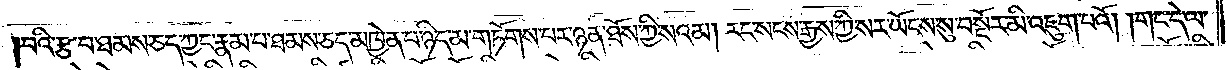བའི་རྩ་བ་ཐམས་ཅད་ཀྱང་རྣམ་པ་ཐམས་ཅད་མཁྱེན་པ་ཉིད་མ་གཏོགས་པར་ཉན་ཐོས་ཀྱི་སའམ། རང་སངས་རྒྱས་ཀྱི་སར་ཡོངས་སུ་བསྔོར་མི་འཇུག་པའོ། །གང་དེ་ལ་
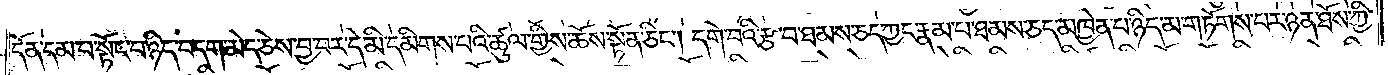དོན་དམ་པ་སྟོང་པ་ཉིད་བདག་མེད་ཅེས་བྱ་བར་དེ་མི་དམིགས་པའི་ཚུལ་གྱིས་ཆོས་སྟོན་ཅིང༌། དགེ་བའི་རྩ་བ་ཐམས་ཅད་ཀྱང་རྣམ་པ་ཐམས་ཅད་མཁྱེན་པ་ཉིད་མ་གཏོགས་པར་ཉན་ཐོས་ཀྱི་
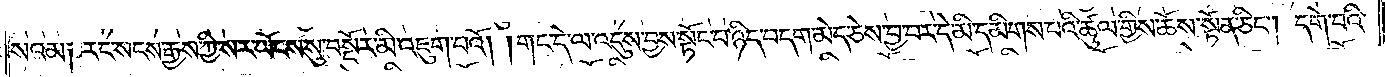སའམ༑ རང་སངས་རྒྱས་ཀྱི་སར་ཡོངས་སུ་བསྔོར་མི་འཇུག་པའོ། །གང་དེ་ལ་འདུས་བྱས་སྟོང་པ་ཉིད་བདག་མེད་ཅེས་བྱ་བར་དེ་མི་དམིགས་པའི་ཚུལ་གྱིས་ཆོས་སྟོན་ཅིང༌། དགེ་བའི་
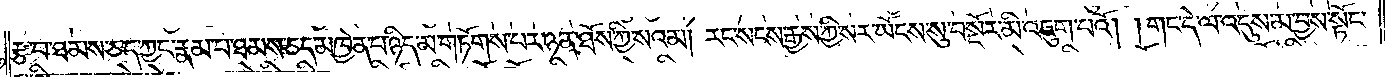རྩ་བ་ཐམས་ཅད་ཀྱང་རྣམ་པ་ཐམས་ཅད་མཁྱེན་པ་ཉིད་མ་གཏོགས་པར་ཉན་ཐོས་ཀྱི་སའམ། རང་སངས་རྒྱས་ཀྱི་སར་ཡོངས་སུ་བསྔོར་མི་འཇུག་པའོ། །གང་དེ་ལ་འདུས་མ་བྱས་སྟོང་
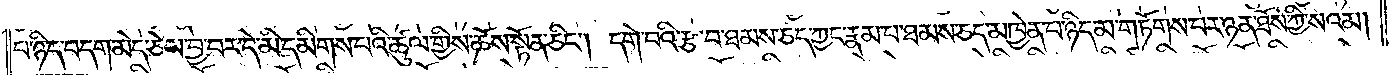པ་ཉིད་བདག་མེད་ཅེས་བྱ་བར་དེ་མི་དམིགས་པའི་ཚུལ་གྱིས་ཆོས་སྟོན་ཅིང༌། དགེ་བའི་རྩ་བ་ཐམས་ཅད་ཀྱང་རྣམ་པ་ཐམས་ཅད་མཁྱེན་པ་ཉིད་མ་གཏོགས་པར་ཉན་ཐོས་ཀྱི་སའམ།
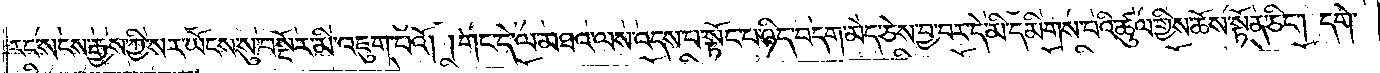རང་སངས་རྒྱས་ཀྱི་སར་ཡོངས་སུ་བསྔོར་མི་འཇུག་པའོ། །གང་དེ་ལ་མཐའ་ལས་འདས་པ་སྟོང་པ་ཉིད་བདག་མེད་ཅེས་བྱ་བར་དེ་མི་དམིགས་པའི་ཚུལ་གྱིས་ཆོས་སྟོན་ཅིང༌། དགེ་
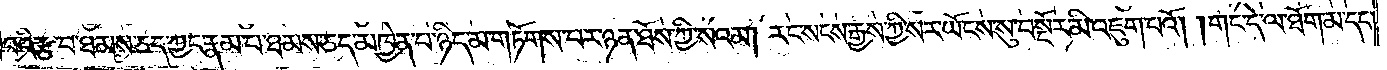བའི་རྩ་བ་ཐམས་ཅད་ཀྱང་རྣམ་པ་ཐམས་ཅད་མཁྱེན་པ་ཉིད་མ་གཏོགས་པར་ཉན་ཐོས་ཀྱི་སའམ། རང་སངས་རྒྱས་ཀྱི་སར་ཡོངས་སུ་བསྔོར་མི་འཇུག་པའོ། །གང་དེ་ལ་ཐོག་མ་དང་
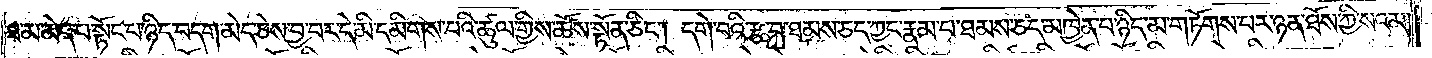ཐ་མ་མེད་པ་སྟོང་པ་ཉིད་བདག་མེད་ཅེས་བྱ་བར་དེ་མི་དམིགས་པའི་ཚུལ་གྱིས་ཆོས་སྟོན་ཅིང༌། དགེ་བའི་རྩ་བ་ཐམས་ཅད་ཀྱང་རྣམ་པ་ཐམས་ཅད་མཁྱེན་པ་ཉིད་མ་གཏོགས་པར་ཉན་ཐོས་ཀྱི་སའམ་
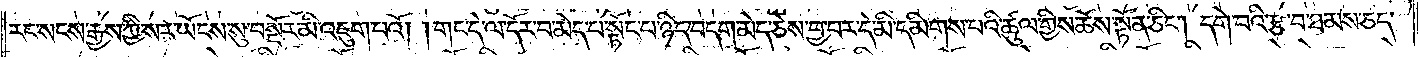རང་སངས་རྒྱས་ཀྱི་སར་ཡོངས་སུ་བསྔོར་མི་འཇུག་པའོ། །གང་དེ་ལ་དོར་བ་མེད་པ་སྟོང་པ་ཉིད་བདག་མེད་ཅེས་བྱ་བར་དེ་མི་དམིགས་པའི་ཚུལ་གྱིས་ཆོས་སྟོན་ཅིང༌། དགེ་བའི་རྩ་བ་ཐམས་ཅད་
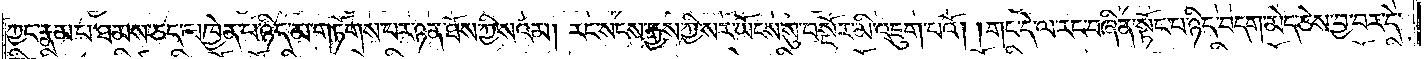ཀྱང་རྣམ་པ་ཐམས་ཅད་མཁྱེན་པ་ཉིད་མ་གཏོགས་པར་ཉན་ཐོས་ཀྱི་སའམ། རང་སངས་རྒྱས་ཀྱི་སར་ཡོངས་སུ་བསྔོར་མི་འཇུག་པའོ། །གང་དེ་ལ་རང་བཞིན་སྟོང་པ་ཉིད་བདག་མེད་ཅེས་བྱ་བར་དེ་
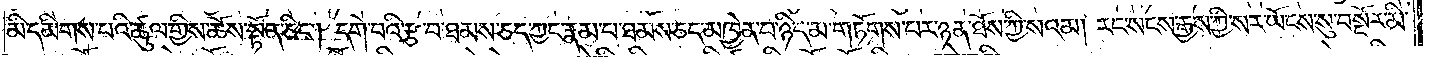མི་དམིགས་པའི་ཚུལ་གྱིས་ཆོས་སྟོན་ཅིང༌། དགེ་བའི་རྩ་བ་ཐམས་ཅད་ཀྱང་རྣམ་པ་ཐམས་ཅད་མཁྱེན་པ་མ་གཏོགས་པར་ཉན་ཐོས་ཀྱི་སའམ། རང་སངས་རྒྱས་ཀྱི་སར་ཡོངས་སུ་བསྔོར་མི་
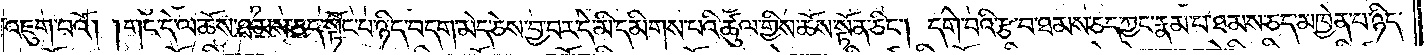འཇུག་པའོ། །གང་དེ་ལ་ཆོས་ཐམས་ཅད་སྟོང་པ་ཉིད་བདག་མེད་ཅེས་བྱ་བར་དེ་མི་དམིགས་པའི་ཚུལ་གྱིས་ཆོས་སྟོན་ཅིང༌། དགེ་བའི་རྩ་བ་ཐམས་ཅད་ཀྱང་རྣམ་པ་ཐམས་ཅད་མཁྱེན་པ་ཉིད་
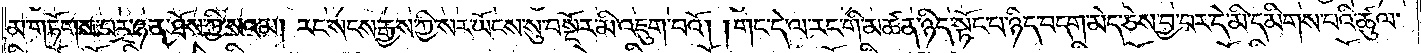མ་གཏོགས་པར་ཉན་ཐོས་ཀྱི་སའམ། རང་སངས་རྒྱས་ཀྱི་སར་ཡོངས་སུ་བསྔོར་མི་འཇུག་པའོ། །གང་དེ་ལ་རང་གི་མཚན་ཉིད་སྟོང་བ་ཉིད་བདག་མེད་ཅེས་བྱ་བར་དེ་མི་དམིགས་པའི་ཚུལ་
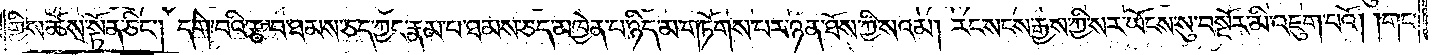གྱིས་ཆོས་སྟོན་ཅིང༌། དགེ་བའི་རྩ་བ་ཐམས་ཅད་ཀྱང་རྣམ་པ་ཐམས་ཅད་མཁྱེན་པ་ཉིད་མ་གཏོགས་པར་ཉན་ཐོས་ཀྱི་སའམ། རང་སངས་རྒྱས་ཀྱི་སར་ཡོངས་སུ་བསྔོར་མི་འཇུག་པའོ། །གང་
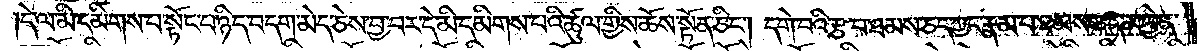དེ་ལ་མི་དམིགས་པ་སྟོང་པ་ཉིད་བདག་མེད་ཅེས་བྱ་བར་དེ་མི་དམིགས་པའི་ཚུལ་གྱིས་ཆོས་སྟོན་ཅིང༌། དགེ་བའི་རྩ་བ་ཐམས་ཅད་ཀྱང་རྣམ་པ་ཐམས་ཅད་མཁྱེན་
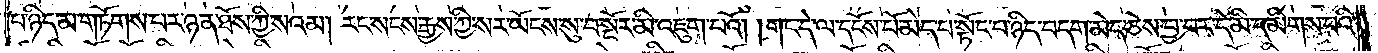པ་ཉིད་མ་གཏོགས་པར་ཉན་ཐོས་ཀྱི་སའམ། རང་སངས་རྒྱས་ཀྱི་སར་ཡོངས་སུ་བསྔོར་མི་འཇུག་པའོ། །གང་དེ་ལ་དངོས་པོ་མེད་པ་སྟོང་པ་ཉིད་བདག་མེད་ཅེས་བྱ་བར་དེ་མི་དམིགས་པའི་
